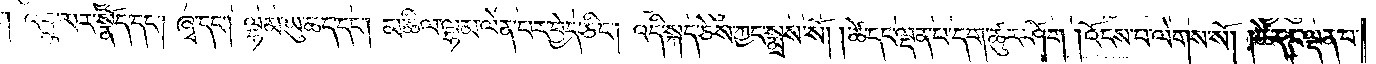འབྲུ་མར་སྣོད་དང༌། ཞྭ་དང༌། ལྷམ་ཡུ་ཆད་དང༌། མཆིལ་ལྷམ་ལེན་པར་བྱེད་ཅིང༌། འདི་སྐད་ཅེས་ཀྱང་སྨྲས་སོ། །ཚེ་དང་ལྡན་པ་དག་ཚུར་ཤོག །འོངས་པ་ལེགས་སོ། །ཚེ་དང་ལྡན་པ་
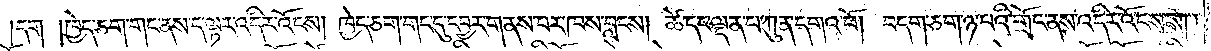དག །ཁྱེད་ཅག་གང་ནས་ད་ལྟར་འདིར་འོངས། ཁྱེད་ཅག་གང་དུ་དབྱར་གནས་པར་ཁས་བླངས། ཚེ་དང་ལྡན་པ་ཀུན་དགའ་བོ། བདག་ཅག་ཉ་བའི་གྲོང་ནས་འདིར་འོངས་སོ། །
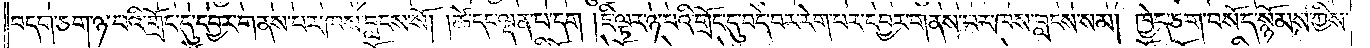བདག་ཅག་ཉ་བའི་གྲོང་དུ་དབྱར་གནས་པར་ཁས་བླངས་སོ། །ཚེ་དང་ལྡན་པ་དག །ཇི་ལྟར་ཉ་བའི་གྲོང་དུ་བདེ་བར་རེག་པར་དབྱར་གནས་པར་ཁས་བླངས་སམ། ཁྱེད་ཅག་བསོད་སྙོམས་ཀྱིས་
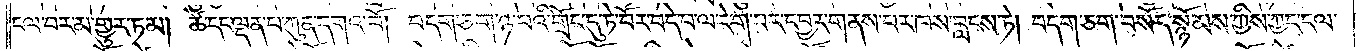ངལ་བར་མ་གྱུར་ཏམ། ཚེ་དང་ལྡན་པ་ཀུན་དགའ་བོ། བདག་ཅག་ཉ་བའི་གྲོང་དུ་ཏེ་བོར་བདེ་བ་ལ་རེག་པར་དབྱར་གནས་པར་ཁས་བླངས་ཏེ། བདག་ཅག་བསོད་སྙོམས་ཀྱིས་ཀྱང་ངལ་
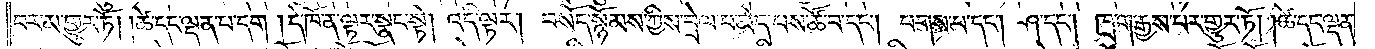བར་མ་གྱུར་ཏོ། །ཚེ་དང་ལྡན་པ་དག །དེ་ཁོ་ན་ལྟར་སྣང་སྟེ། འདི་ལྟར། བསོད་སྙོམས་ཀྱིས་བྲེལ་བ་མེད་པས་ཚོ་བ་དང༌། པགས་པ་དང༌། ཤ་དང༌། ཁྲག་རྒྱས་པར་གྱུར་ཏོ། །ཚེ་དང་ལྡན་
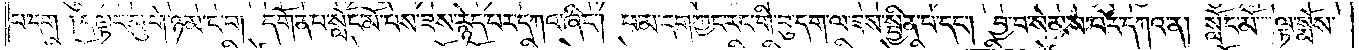པ་དག །དེ་ལྟར་མུ་གེ་ཉམ་ང་བ། དགོན་པ་སློང་མོ་པས་ཟས་རྙེད་པར་དཀའ་ཞིང༌། ཕ་མ་དག་ཀྱང་རང་གི་བུ་དག་ལ་ཟས་སྦྱིན་པ་དང༌། བྱ་བ་སེམས་པར་དཀའ་ན། སློང་མོ་ལྟ་སྨོས་
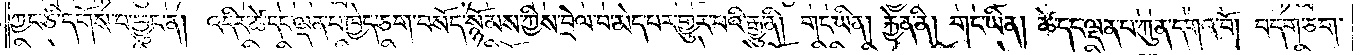ཀྱང་ཅི་དགོས་པ་བྱུང་ན། འདིར་ཚེ་དང་ལྡན་པ་ཁྱེད་ཅག་བསོད་སྙོམས་ཀྱིས་བྲེལ་བ་མེད་པར་གྱུར་པའི་རྒྱུ་ནི། གང་ཡིན། རྐྱེན་ནི། གང་ཡིན། ཚེ་དང་ལྡན་པ་ཀུན་དགའ་བོ། བདག་ཅག་
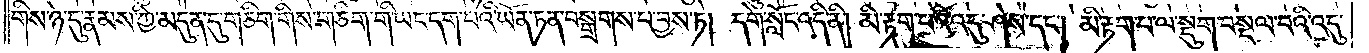གིས་ཉེ་དུ་རྣམས་ཀྱི་མདུན་དུ་གཅིག་གིས་གཅིག་གི་ཡང་དག་པའི་ཡོན་ཏན་བསྒྲགས་པ་བྱས་ཏེ། དགེ་སློང་འདི་ནི། མི་རྟག་པའི་འདུ་ཤེས་དང༌། མི་རྟག་པ་ལ་སྡུག་བསྔལ་བའི་འདུ་
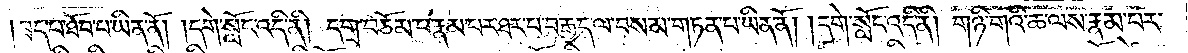ཟད་པ་ཐོབ་པ་ཡིན་ནོ། །དགེ་སློང་འདི་ནི། དགྲ་བཅོམ་པ་རྣམ་པར་ཐར་པ་བརྒྱད་ལ་བསམ་གཏན་བ་ཡིན་ནོ། །དགེ་སློང་འདི་ནི། གཉི་གའི་ཆ་ལས་རྣམ་པར་
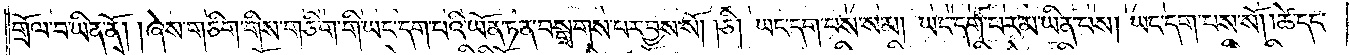གྲོལ་བ་ཡིན་ནོ། །ཞེས་གཅིག་གིས་གཅིག་གི་ཡང་དག་པའི་ཡོན་ཏན་བསྒྲགས་པར་བྱས་སོ། །ཅི། ཡང་དག་པས་སམ། ཡང་དག་པར་མ་ཡིན་པས། ཡང་དག་པས་སོ། །ཚེ་དང་
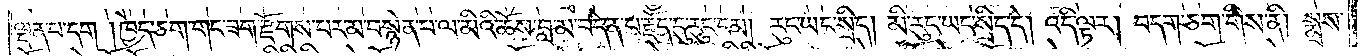ལྡན་པ་དག །ཁྱེད་ཅག་གང་ཟག་རྫོགས་པར་མ་བསྙེན་པ་ལ་མིའི་ཆོས་བླ་མ་བདེན་པ་རྗོད་དུ་རུང་ངམ། རུང་ཡང་སྲིད། མི་རུང་ཡང་སྲིད་དེ། འདི་ལྟར། བདག་ཅག་གིས་ནི། སྨྲས་
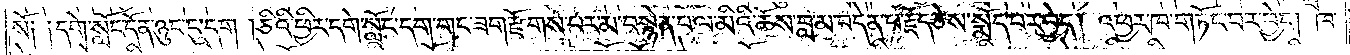སོ༑ ༑དགེ་སློང་དོན་ཉུང་ངུ་དག །ཅིའི་ཕྱིར་དགེ་སློང་དག་གང་ཟག་རྫོགས་པར་མ་བསྙེན་པ་ལ་མིའི་ཆོས་བླ་མ་བདེན་པ་རྗོད་ཅེས་སྨོད་པར་བྱེད། འཕྱར་ཁ་གཏོང་བར་བྱེད། ཁ་
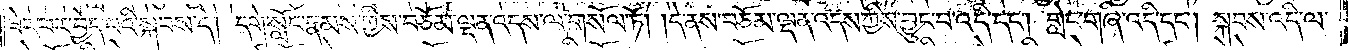ཟེར་བར་བྱེད་པའི་སྐབས་དེ། དགེ་སློང་རྣམས་ཀྱིས་བཅོམ་ལྡན་འདས་ལ་གསོལ་ཏོ། །དེ་ནས་བཅོམ་ལྡན་འདས་ཀྱིས་བྱུང་བ་འདི་དང༌། གླེང་གཞི་འདི་དང༌། སྐབས་འདི་ལ་
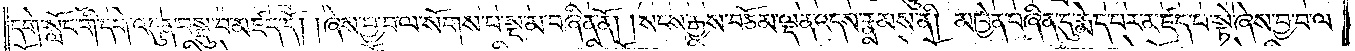དགེ་སློང་གི་དགེ་འདུན་བསྡུ་བ་མཛད་དོ། །ཞེས་བྱ་བ་ལ་སོགས་པ་སྔ་མ་བཞིན་ནོ། །སངས་རྒྱས་བཅོམ་ལྡན་འདས་རྣམས་ནི། མཁྱེན་བཞིན་དུ་རྨེད་པར་མཛད་པ་སྟེ་ཞེས་བྱ་བ་ལ་
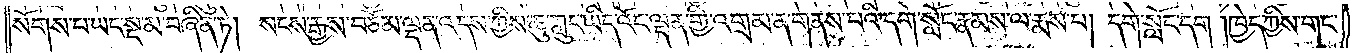སོགས་པ་ཡང་སྔ་མ་བཞིན་ཏེ། སངས་རྒྱས་བཅོམ་ལྡན་འདས་ཀྱིས་ཆུ་ཀླུང་ཡིད་འོང་ལྡན་གྱི་འགྲམ་ན་གནས་པའི་དགེ་སློང་རྣམས་ལ་རྨས་པ། དགེ་སློང་དག །ཁྱེད་ཀྱིས་གང་
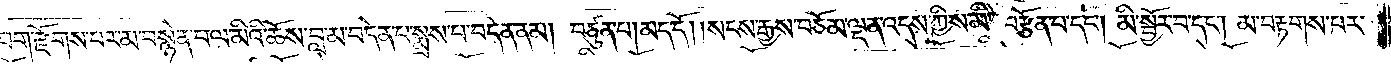ཟག་རྫོགས་པར་མ་བསྙེན་བ་ལ་མིའི་ཆོས་བླ་མ་བདེན་པ་སྨྲས་པ་བདེན་ནམ། བཙུན་པ། མད་དོ། །སངས་རྒྱས་བཅོམ་ལྡན་འདས་ཀྱིས་མི་བརྩོན་པ་དང༌། མི་སྦྱོར་བ་དང༌། མ་བརྟགས་པར་
